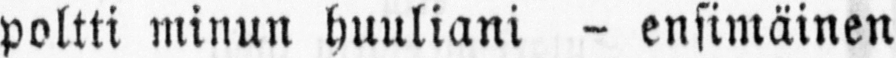poltti minun huuliani - ensimäinen
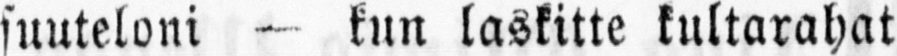suuteloni — kun laskitte kultarahat
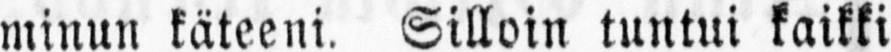minun käteeni. Silloin tuntui kaikki
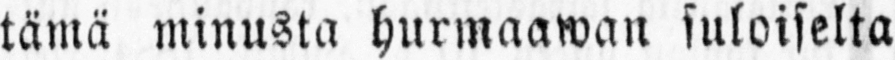tämä minusta hurmaawan suloiselta
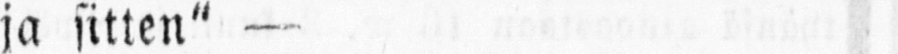ja sitten" —
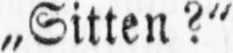„Sitten?"
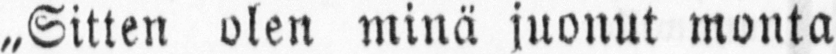„Sitten olen minä juonut monta
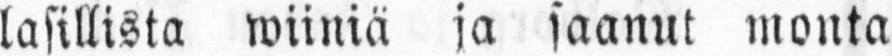lasillista wiiniä ja saanut monta
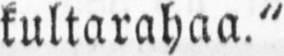kultarahaa."
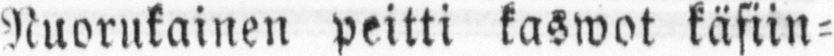Nuorukainen peitti kaswot käfiin-
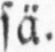sä.
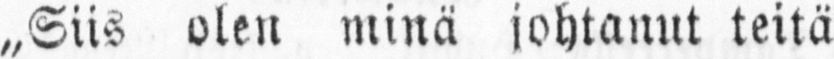„Siis olen minä johtanut teitä
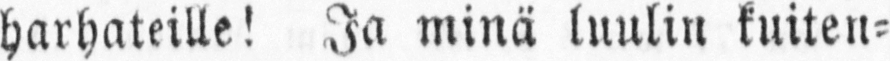harhateille! Ja minä luulin kuiten-
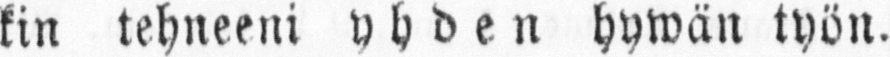kin tehneeni yhden hywän työn.
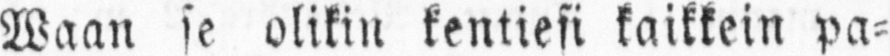Waan se olikin kentiesi kaikkein pa-
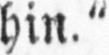hin."
